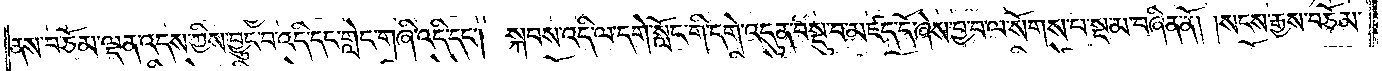ནས་བཅོམ་ལྡན་འདས་ཀྱིས་བྱུང་བ་འདི་དང་གླེང་གཞི་འདི་དང༌། སྐབས་འདི་ལ་དགེ་སློང་གི་དགེ་འདུན་བསྡུ་བ་མཛད་དོ་ཞེས་བྱ་བ་ལ་སོགས་པ་སྔ་མ་བཞིན་ནོ། །སངས་རྒྱས་བཅོམ་
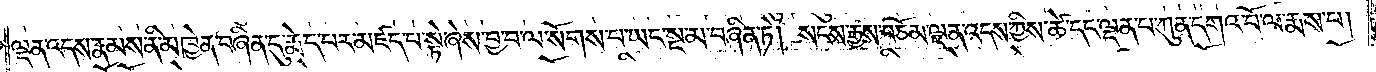ལྡན་འདས་རྣམས་ནི་མཁྱེན་བཞིན་དུ་རྨེད་པར་མཛད་པ་སྟེ་ཞེས་བྱ་བ་ལ་སོགས་པ་ཡང་སྔ་མ་བཞིན་ཏེ། སངས་རྒྱས་བཅོམ་ལྡན་འདས་ཀྱིས་ཚེ་དང་ལྡན་པ་ཀུན་དགའ་བོ་ལ་རྨས་པ།
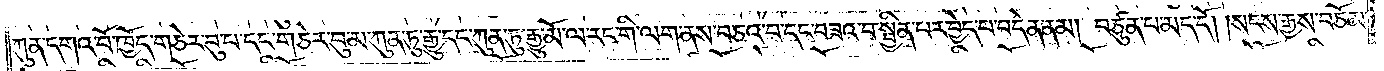ཀུན་དགའ་བོ་ཁྱོད་གཅེར་བུ་པ་དང་གཅེར་བུ་མ་ཀུན་ཏུ་རྒྱུ་དང་ཀུན་ཏུ་རྒྱུ་མོ་ལ་རང་གི་ལག་ནས་བཅའ་བ་དང་བཟའ་བ་སྦྱིན་པར་བྱེད་པ་བདེན་ནམ། བཙུན་པ་མད་དོ། །སངས་རྒྱས་བཅོམ་
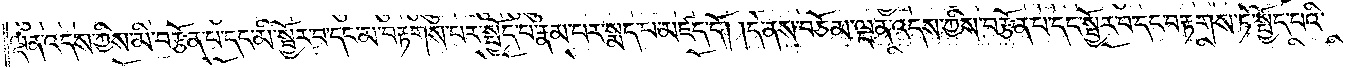ལྡན་འདས་ཀྱིས་མི་བརྩོན་པ་དང་མི་སྦྱོར་བ་དང་མ་བརྟགས་པར་སྤྱོད་པ་རྣམ་པར་སྨད་པ་མཛད་དོ། །དེ་ནས་བཅོམ་ལྡན་འདས་ཀྱིས་བརྩོན་པ་དང་སྦྱོར་བ་དང་བརྟགས་ཏེ་སྤྱོད་པའི་
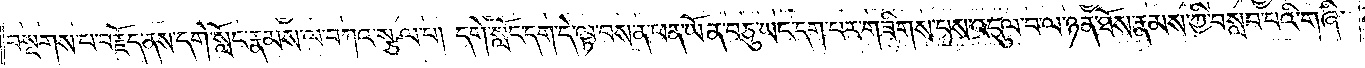བསྔགས་པ་བརྗོད་ནས་དགེ་སློང་རྣམས་ལ་བཀའ་སྩལ་པ། དགེ་སློང་དག་དེ་ལྟ་བས་ན་ཕན་ཡོན་བཅུ་ཡང་དག་པར་གཟིགས་པས་འདུལ་བ་ལ་ཉན་ཐོས་རྣམས་ཀྱི་བསླབ་པའི་གཞི་
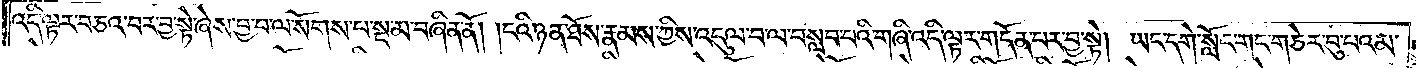འདི་ལྟར་བཅའ་བར་བྱ་སྟེ་ཞེས་བྱ་བ་ལ་སོགས་པ་སྔ་མ་བཞིན་ནོ། །ངའི་ཉན་ཐོས་རྣམས་ཀྱིས་འདུལ་བ་ལ་བསླབ་པའི་གཞི་འདི་ལྟར་གདོན་པར་བྱ་སྟེ། ཡང་དགེ་སློང་གང་གཅེར་བུ་པའམ་
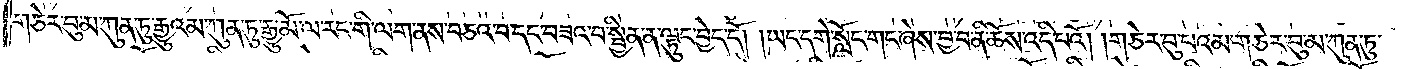གཅེར་བུ་མ་ཀུན་ཏུ་རྒྱུའམ་ཀུན་ཏུ་རྒྱུ་མོ་ལ་རང་གི་ལག་ནས་བཅའ་བ་དང་བཟའ་བ་སྦྱིན་ན་ལྟུང་བྱེད་དོ། །ཡང་དགེ་སློང་གང་ཞེས་བྱ་བ་ནི་ཆོས་འདི་པའོ། །གཅེར་བུ་པའམ་གཅེར་བུ་མ་ཀུན་ཏུ་
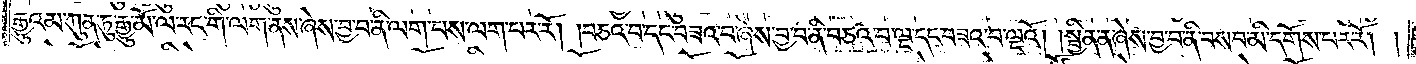རྒྱུའམ་ཀུན་ཏུ་རྒྱུ་མོ་ལ་རང་གི་ལག་ནས་ཞེས་བྱ་བ་ནི་ལག་པས་ལག་པར་རོ། །བཅའ་བ་དང་བཟའ་བ་ཞེས་བྱ་བ་ནི་བཅའ་བ་ལྔ་དང་བཟའ་བ་ལྔའོ། །སྦྱིན་ན་ཞེས་བྱ་བ་ནི་བསབ་མི་དགོས་པར་རོ། །
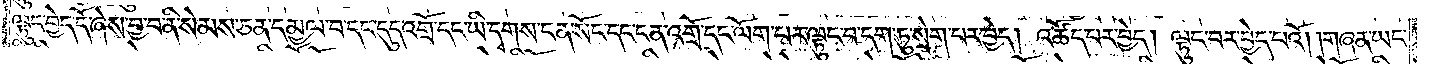ལྟུང་བྱེད་དོ་ཞེས་བྱ་བ་ནི་སེམས་ཅན་དམྱལ་བ་དང་དུད་འགྲོ་དང་ཡི་དྭགས་ངན་སོང་དང་ངན་འགྲོ་དང་ལོག་པར་ལྟུང་བ་དག་ཏུ་སྲེག་པར་བྱེད། འཚོད་པར་བྱེད། ལྟུང་བར་བྱེད་པའོ། །གཞན་ཡང་
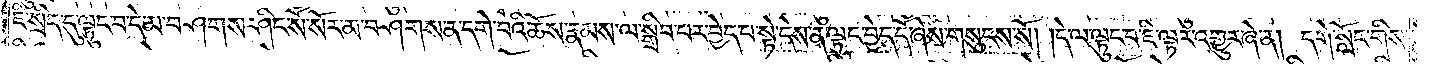ཇི་སྲིད་དུ་ལྟུང་བ་དེ་མ་བཤགས་ཤིང་སོ་སོར་མ་བཤགས་ན་དགེ་བའི་ཆོས་རྣམས་ལ་སྒྲིབ་པར་བྱེད་པ་སྟེ་དེས་ན་ལྟུང་བྱེད་དོ་ཞེས་གསུངས་སོ། །དེ་ལ་ལྟུང་བ་ཇི་ལྟར་འགྱུར་ཞེ་ན། དགེ་སློང་གིས་
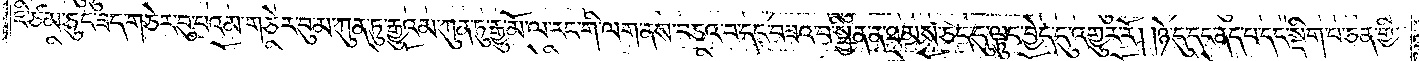ཇི་ཙམ་ཅུང་ཟད་གཅེར་བུ་པའམ་གཅེར་བུ་མ་ཀུན་ཏུ་རྒྱུའམ་ཀུན་ཏུ་རྒྱུ་མོ་ལ་རང་གི་ལག་ནས་བཅའ་བ་དང་བཟའ་བ་སྦྱིན་ན་ཐམས་ཅད་དུ་ལྟུང་བྱེད་དུ་འགྱུར་རོ། །ཉེ་དུ་དང་ནད་པ་དང་སྡིག་པ་ཅན་གྱི་
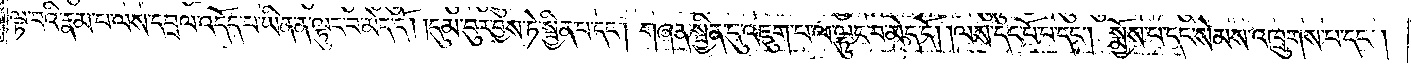ལྟ་བའི་རྣམ་པ་ལས་དབྲལ་འདོད་པ་ཡིན་ན་ལྟུང་བ་མེད་དོ། །དུམ་བུར་བྱས་ཏེ་སྦྱིན་པ་དང༌། གཞན་སྦྱིན་དུ་འཇུག་པ་ལ་ལྟུང་བ་མེད་དོ། །ལས་དང་པོ་པ་དང༌། སྨྱོས་པ་དང་སེམས་འཁྲུགས་པ་དང༌།
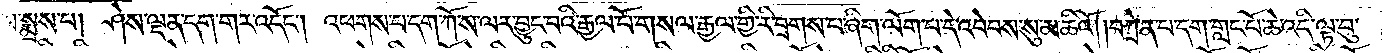ལ་སྨྲས་པ། ཤེས་ལྡན་དག་གར་འདོང༌། འཕགས་པ་དག་ཀོ་ས་ལར་བྱུང་བའི་རྒྱལ་པོ་གསལ་རྒྱལ་གྱི་རི་བྲགས་པ་ཞིག་ལོག་པ་དེ་འབེབས་སུ་མཆིའོ། །བཀྲེན་པ་དག་གླང་པོ་ཆེ་འདི་ལྟ་བུ་
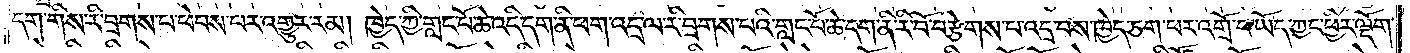དག་གིས་རི་བྲགས་པ་ཕེབས་པར་འགྱུར་རམ། ཁྱེད་ཀྱི་གླང་པོ་ཆེ་འདི་དག་ནི་ཕག་འདྲ་ལ་རི་བྲགས་པའི་གླང་པོ་ཆེ་དག་ནི་རི་བོ་བརྩེགས་པ་འདྲ་བས་ཁྱེད་ཅག་ཕར་འགྲོ་བ་ཡོད་ཀྱང་ཕྱིར་ལྡོག་
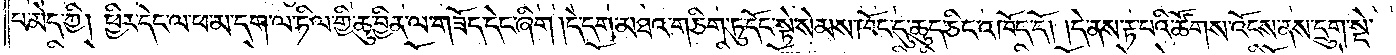པ་མེད་ཀྱི། ཕྱིར་དེང་ལ་ཕ་མ་དག་ལ་ཏིལ་གྱི་ཆུ་བྱིན་ལ་གཟོད་དེང་ཞིག །དེ་དག་མཐའ་གཅིག་ཏུ་དོང་སྟེ་སེམས་ཁོང་དུ་ཆུད་ཅིང་འཁོད་དོ། །དེ་ནས་རྟ་པའི་ཚོགས་འོངས་ནས་དྲུག་སྡེ་
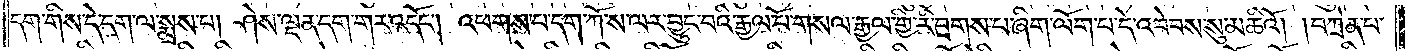དག་གིས་དེ་དག་ལ་སྨྲས་པ། ཤེས་ལྡན་དག་གར་འདོང༌། འཕགས་པ་དག་ཀོ་ས་ལར་བྱུང་བའི་རྒྱལ་པོ་གསལ་རྒྱལ་གྱི་རི་བྲགས་པ་ཞིག་ལོག་པ་དེ་འབེབས་སུ་མཆིའོ། །བཀྲེན་པ་
